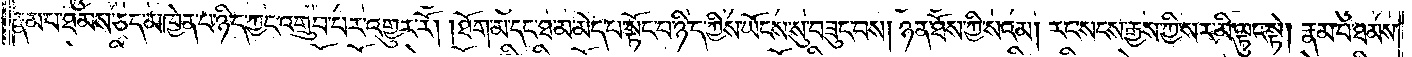རྣམ་པ་ཐམས་ཅད་མཁྱེན་པ་ཉིད་ཀྱང་འགྲུབ་པར་འགྱུར་རོ། །ཐོག་མ་དང་ཐ་མ་མེད་པ་སྟོང་པ་ཉིད་ཀྱིས་ཡོངས་སུ་བཟུང་བས། ཉན་ཐོས་ཀྱི་སའམ། རང་སངས་རྒྱས་ཀྱི་སར་མི་ལྟུང་སྟེ། རྣམ་པ་ཐམས་
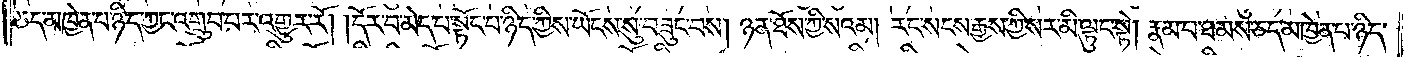ཅད་མཁྱེན་པ་ཉིད་ཀྱང་འགྲུབ་པར་འགྱུར་རོ། །དོར་བ་མེད་པ་སྟོང་པ་ཉིད་ཀྱིས་ཡོངས་སུ་བཟུང་བས། ཉན་ཐོས་ཀྱི་སའམ། རང་སངས་རྒྱས་ཀྱི་སར་མི་ལྟུང་སྟེ། རྣམ་པ་ཐམས་ཅད་མཁྱེན་པ་ཉིད་
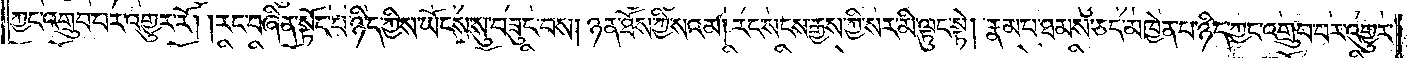ཀྱང་འགྲུབ་པར་འགྱུར་རོ། །རང་བཞིན་སྟོང་པ་ཉིད་ཀྱིས་ཡོངས་སུ་བཟུང་བས། ཉན་ཐོས་ཀྱི་སའམ། རང་སངས་རྒྱས་ཀྱི་སར་མི་ལྟུང་སྟེ། རྣམ་པ་ཐམས་ཅད་མཁྱེན་པ་ཉིད་ཀྱང་འགྲུབ་པར་འགྱུར་
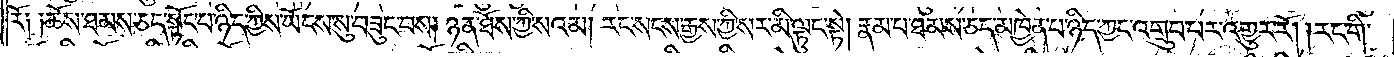རོ། །ཆོས་ཐམས་ཅད་སྟོང་པ་ཉིད་ཀྱིས་ཡོངས་སུ་བཟུང་བས། ཉན་ཐོས་ཀྱི་སའམ། རང་སངས་རྒྱས་ཀྱི་སར་མི་ལྟུང་སྟེ། རྣམ་པ་ཐམས་ཅད་མཁྱེན་པ་ཉིད་ཀྱང་འགྲུབ་པར་འགྱུར་རོ། །རང་གི་
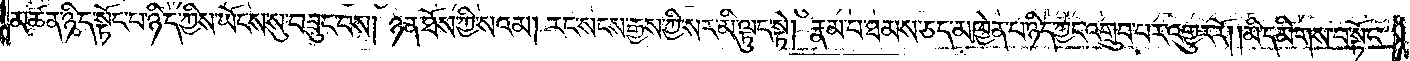མཚན་ཉིད་སྟོང་པ་ཉིད་ཀྱིས་ཡོངས་སུ་བཟུང་བས། ཉན་ཐོས་ཀྱི་སའམ། རང་སངས་རྒྱས་ཀྱི་སར་མི་ལྟུང་སྟེ། རྣམ་པ་ཐམས་ཅད་མཁྱེན་པ་ཉིད་ཀྱང་འགྲུབ་པར་འགྱུར་རོ། །མི་དམིགས་པ་སྟོང་
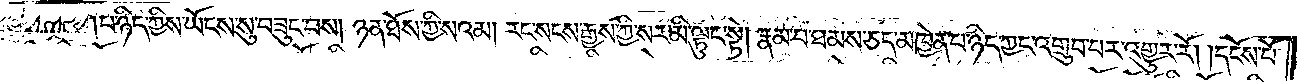པ་ཉིད་ཀྱིས་ཡོངས་སུ་བཟུང་བས། ཉན་ཐོས་ཀྱི་སའམ། རང་སངས་རྒྱས་ཀྱི་སར་མི་ལྟུང་སྟེ། རྣམ་པ་ཐམས་ཅད་མཁྱེན་པ་ཉིད་ཀྱང་འགྲུབ་པར་འགྱུར་རོ། །དངོས་པོ་
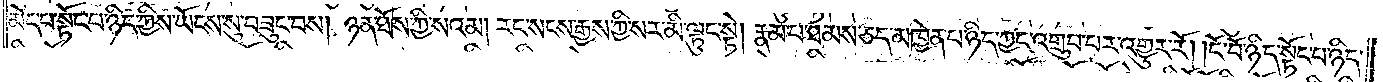མེད་པ་སྟོང་པ་ཉིད་ཀྱིས་ཡོངས་སུ་བཟུང་བས། ཉན་ཐོས་ཀྱི་སའམ། རང་སངས་རྒྱས་ཀྱི་སར་མི་ལྟུང་སྟེ། རྣམ་པ་ཐམས་ཅད་མཁྱེན་པ་ཉིད་ཀྱང་འགྲུབ་པར་འགྱུར་རོ། །ངོ་བོ་ཉིད་སྟོང་པ་ཉིད་
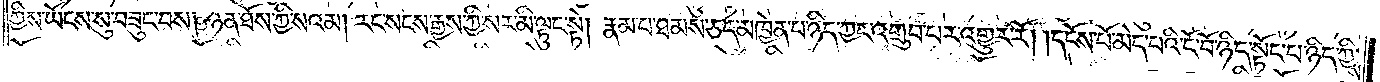ཀྱིས་ཡོངས་སུ་བཟུང་བས། ཉན་ཐོས་ཀྱི་སའམ། རང་སངས་རྒྱས་ཀྱི་སར་མི་ལྟུང་སྟེ། རྣམ་པ་ཐམས་ཅད་མཁྱེན་པ་ཉིད་ཀྱང་འགྲུབ་པར་འགྱུར་རོ། །དངོས་པོ་མེད་པའི་ངོ་བོ་ཉིད་སྟོང་པ་ཉིད་ཀྱིས་
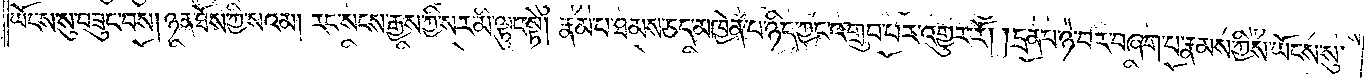ཡོངས་སུ་བཟུང་བས། ཉན་ཐོས་ཀྱི་སའམ། རང་སངས་རྒྱས་ཀྱི་སར་མི་ལྟུང་སྟེ། རྣམ་པ་ཐམས་ཅད་མཁྱེན་པ་ཉིད་ཀྱང་འགྲུབ་པར་འགྱུར་རོ། །དྲན་པ་ཉེ་བར་བཞག་པ་རྣམས་ཀྱིས་ཡོངས་སུ་
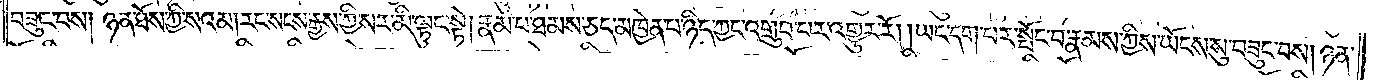བཟུང་བས། ཉན་ཐོས་ཀྱི་སའམ། རང་སངས་རྒྱས་ཀྱི་སར་མི་ལྟུང་སྟེ། རྣམ་པ་ཐམས་ཅད་མཁྱེན་པ་ཉིད་ཀྱང་འགྲུབ་པར་འགྱུར་རོ། །ཡང་དག་པར་སྤོང་བ་རྣམས་ཀྱིས་ཡོངས་སུ་བཟུང་བས། ཉན་
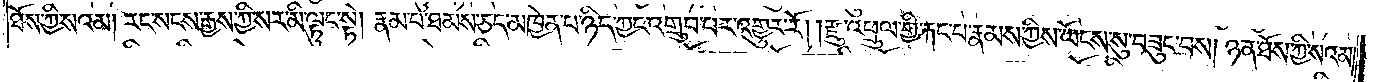ཐོས་ཀྱི་སའམ། རང་སངས་རྒྱས་ཀྱི་སར་མི་ལྟུང་སྟེ། རྣམ་པ་ཐམས་ཅད་མཁྱེན་པ་ཉིད་ཀྱང་འགྲུབ་པར་འགྱུར་རོ། །རྫུ་འཕྲུལ་གྱི་རྐང་པ་རྣམས་ཀྱིས་ཡོངས་སུ་བཟུང་བས། ཉན་ཐོས་ཀྱི་སའམ།
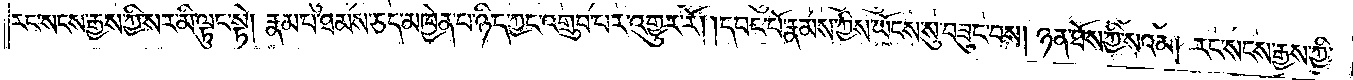རང་སངས་རྒྱས་ཀྱི་སར་མི་ལྟུང་སྟེ། རྣམ་པ་ཐམས་ཅད་མཁྱེན་པ་ཉིད་ཀྱང་འགྲུབ་པར་འགྱུར་རོ། །དབང་པོ་རྣམས་ཀྱིས་ཡོངས་སུ་བཟུང་བས། ཉན་ཐོས་ཀྱི་སའམ། རང་སངས་རྒྱས་ཀྱི་
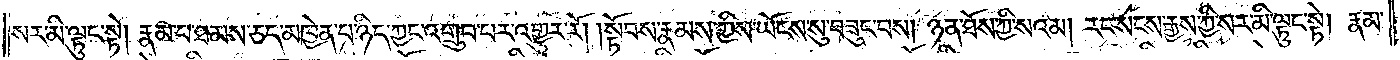སར་མི་ལྟུང་སྟེ། རྣམ་པ་ཐམས་ཅད་མཁྱེན་པ་ཉིད་ཀྱང་འགྲུབ་པར་འགྱུར་རོ། །སྟོབས་རྣམས་ཀྱིས་ཡོངས་སུ་བཟུང་བས། ཉན་ཐོས་ཀྱི་སའམ། རང་སངས་རྒྱས་ཀྱི་སར་མི་ལྟུང་སྟེ། རྣམ་
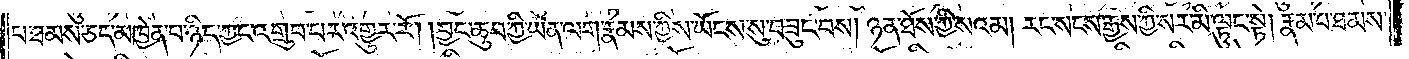པ་ཐམས་ཅད་མཁྱེན་པ་ཉིད་ཀྱང་འགྲུབ་པར་འགྱུར་རོ། །བྱང་ཆུབ་ཀྱི་ཡན་ལག་རྣམས་ཀྱིས་ཡོངས་སུ་བཟུང་བས། ཉན་ཐོས་ཀྱི་སའམ། རང་སངས་རྒྱས་ཀྱི་སར་མི་ལྟུང་སྟེ། རྣམ་པ་ཐམས་
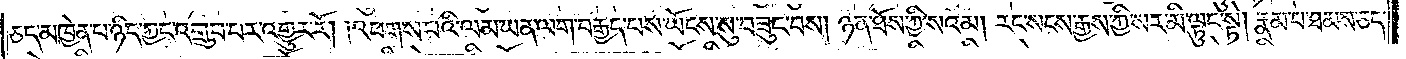ཅད་མཁྱེན་པ་ཉིད་ཀྱང་འགྲུབ་པར་འགྱུར་རོ། །འཕགས་པའི་ལམ་ཡན་ལག་བརྒྱད་པས་ཡོངས་སུ་བཟུང་བས། ཉན་ཐོས་ཀྱི་སའམ། རང་སངས་རྒྱས་ཀྱི་སར་མི་ལྟུང་སྟེ། རྣམ་པ་ཐམས་ཅད་
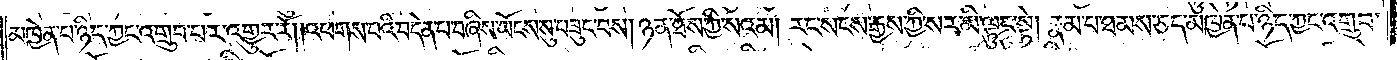མཁྱེན་པ་ཉིད་ཀྱང་འགྲུབ་པར་འགྱུར་རོ། །འཕགས་པའི་བདེན་པ་བཞིས་ཡོངས་སུ་བཟུང་བས། ཉན་ཐོས་ཀྱི་སའམ། རང་སངས་རྒྱས་ཀྱི་སར་མི་ལྟུང་སྟེ། རྣམ་པ་ཐམས་ཅད་མཁྱེན་པ་ཉིད་ཀྱང་འགྲུབ་
